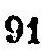91
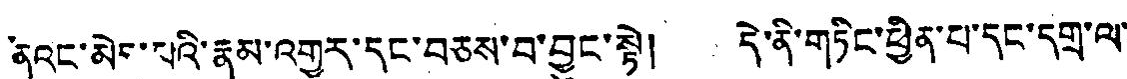ནའང་མེད་པའི་རྣམ་འགྱུར་དང་བཅས་བུ་བྱུང་སྟེ། དེ་ནི་གཏིང་ཕྱིན་པ་དང་དགྲ་ལ་
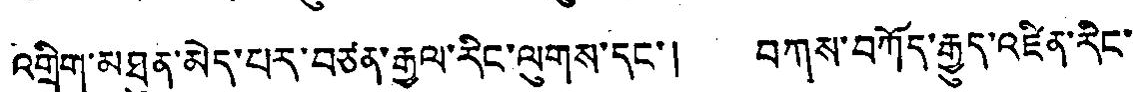འགྲིག་མཐུན་མེད་པར་བཙན་རྒྱལ་རིང་ལུགས་དང་། བཀས་བཀོད་རྒྱུད་འཛིན་རིང་
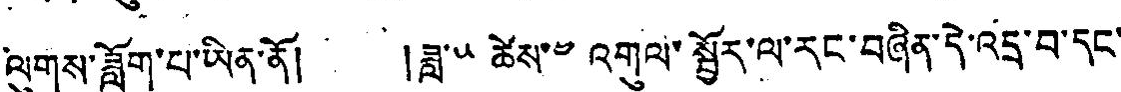ལུགས་ཟློག་པ་ཡིན་ནོ། །ཟླ་༥ ཚེས་༤ འགུལ་སྦྱོར་ལ་རང་བཞིན་དེ་འདྲ་བ་དང་
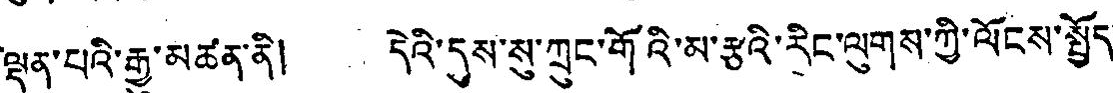ལྡན་པའི་རྒྱུ་མཚན་ནི། དེའི་དུས་སུ་ཀྲུང་གོའི་མ་རྩའི་རིང་ལུགས་ཀྱི་ལོངས་སྤྱོད་
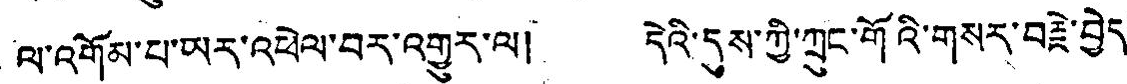ལ་འགོམ་པ་ཡར་འཕེལ་བར་འགྱུར་ལ། དེའི་དུས་ཀྱི་ཀྲུང་གོའི་གསར་བརྗེ་བྱེད་
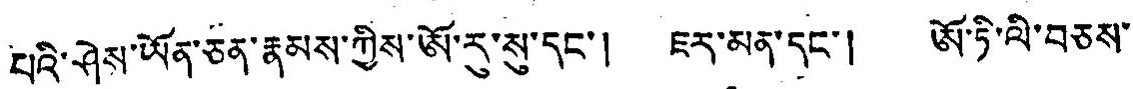པའི་ཤེས་ཡོན་ཅན་རྣམས་ཀྱིས་ཨོ་རུ་སུ་དང་། ཇར་མན་དང་། ཨོ་ཏི་ལི་བཅས་
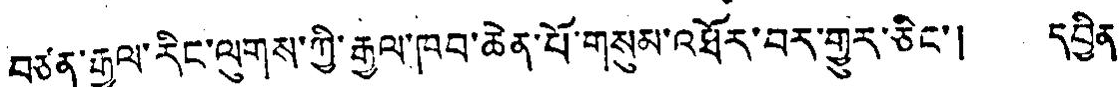བཙན་རྒྱལ་རིང་ལུགས་ཀྱི་རྒྱལ་ཁབ་ཆེན་པོ་གསུམ་འཐོར་བར་གྱུར་ཅིང་། དབྱིན་
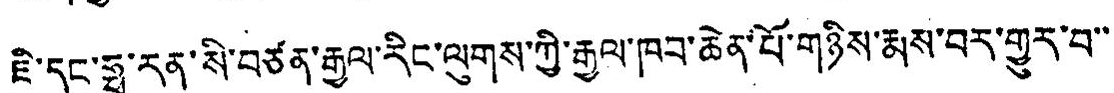ཇི་དང་ཧྥ་རན་སི་བཙན་རྒྱལ་རིང་ལུགས་ཀྱི་རྒྱལ་ཁབ་ཆེན་པོ་གཉིས་རྨས་བར་གྱུར་བ་་
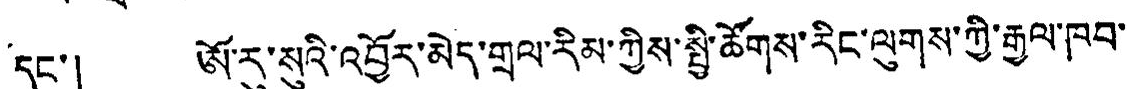དང་། ཨོ་རུ་སུའི་འབྱོར་མེད་གྲལ་རིམ་ཀྱིས་སྤྱི་ཚོགས་རིང་ལུགས་ཀྱི་རྒྱལ་ཁབ་
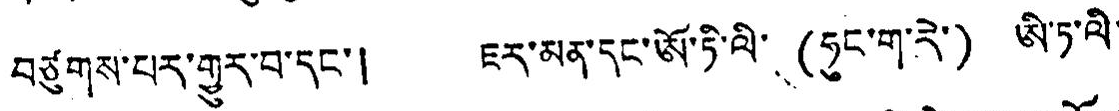བཙུགས་པར་གྱུར་བ་དང་། ཇར་མན་དང་ཨོ་ཏི་ལི་ (ཧུང་ག་རེ་) ཨི་ཏ་ལི་
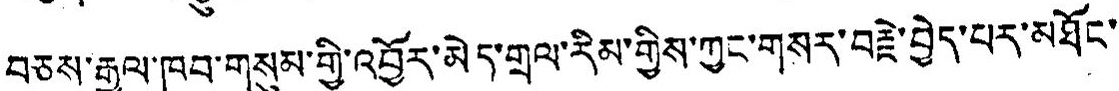བཅས་རྒྱལ་ཁབ་གསུམ་གྱི་འབྱོར་མེད་གྲལ་རིམ་གྱིས་ཀྱང་གསར་བརྗེ་བྱེད་པར་མཐོང་
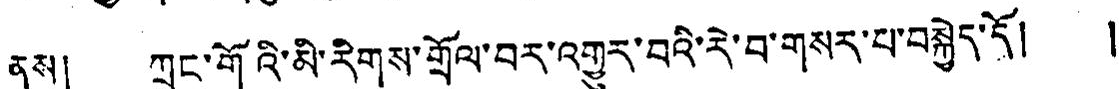ནས། ཀྲུང་གོའི་མི་རིགས་གྲོལ་བར་འགྱུར་བའི་རེ་བ་གསར་པ་བསྐྱེད་དོ། །
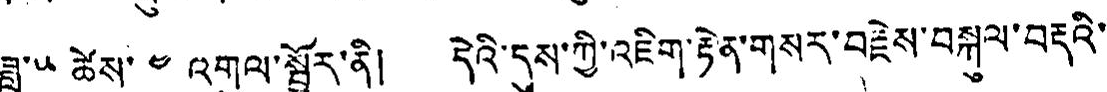ཟླ་༥ ཚེས་ ༤ འགུལ་སྦྱོར་ནི། དེའི་དུས་ཀྱི་འཇིག་རྟེན་གསར་བརྗེས་བསྐུལ་བརྡའི་
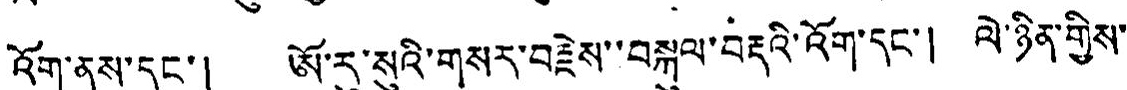འོག་ནས་དང་། ཨོ་རུ་སུའི་གསར་བརྗེས་བསྐུལ་བརྡའི་འོག་དང་། ལེ་ཉིན་གྱིས་
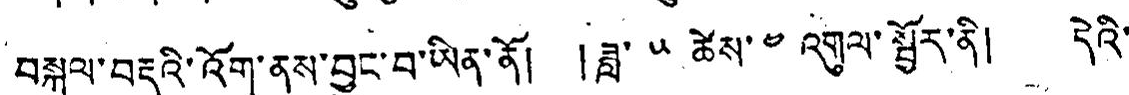བསྐུལ་བརྡའི་འོག་ནས་བྱུང་བ་ཡིན་ནོ། །ཟླ་༥ ཚེས་༤ འགུལ་སྦྱོར་ནི། དེའི་
